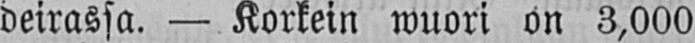deirassa. — Korkein wuori on 3,000
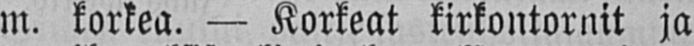m. korkea. — Korkeat kirkontornit ja
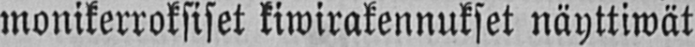monikerroksiset kiwirakennukset näyttiwät
